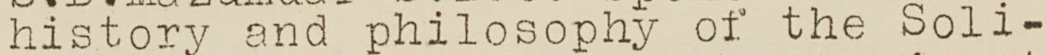history and philosophy of the Soli-
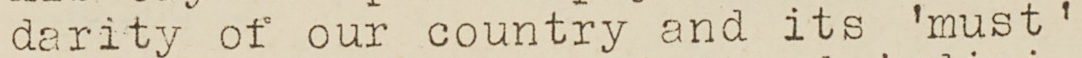darity of our country and its 'must'
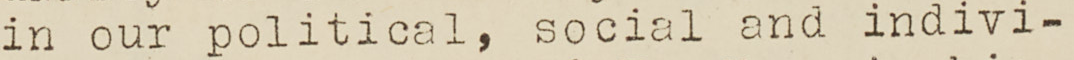in our political, social and indivi-
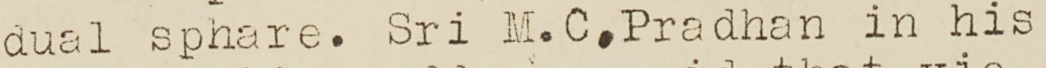dual sphare. Sri M.C.Pradhan in his
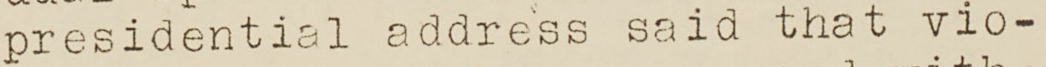presidential address said that vio-
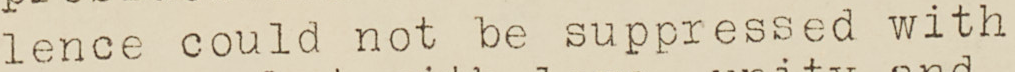lence could not be suppressed with
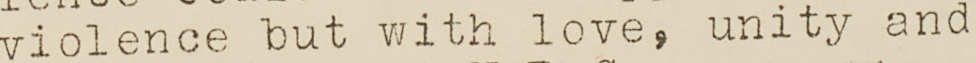violence but with love, unity and
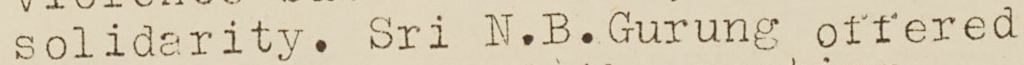solidarity. Sri N.B. Gurung offered
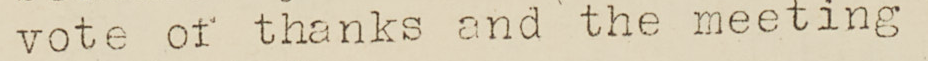vote of thanks and the meeting
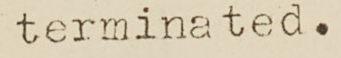terminated.
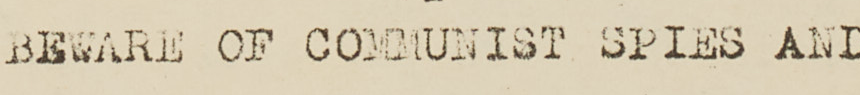BEWARE OF COMMUNIST SPIES AND
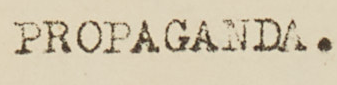PROPAGANDA.
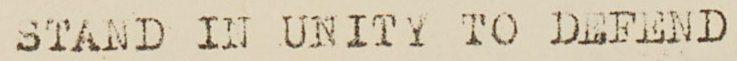STAND IN UNITY TO DEFEND
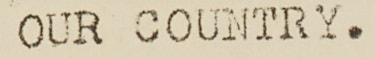OUR COUNTRY.
